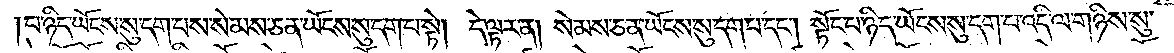པ་ཉིད་ཡོངས་སུ་དག་པས་སེམས་ཅན་ཡོངས་སུ་དག་པ་སྟེ། དེ་ལྟར་ན། སེམས་ཅན་ཡོངས་སུ་དག་པ་དང༌། སྟོང་པ་ཉིད་ཡོངས་སུ་དག་པ་འདི་ལ་གཉིས་སུ་
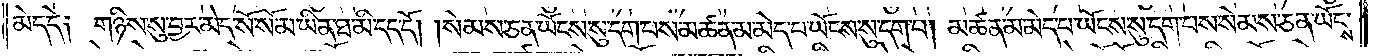མེད་དེ༑ གཉིས་སུ་བྱར་མེད་སོ་སོ་མ་ཡིན་ཐ་མི་དད་དོ། །སེམས་ཅན་ཡོངས་སུ་དག་པས་མཚན་མ་མེད་པ་ཡོངས་སུ་དག་པ། མཚན་མ་མེད་པ་ཡོངས་སུ་དག་པས་སེམས་ཅན་ཡོངས་
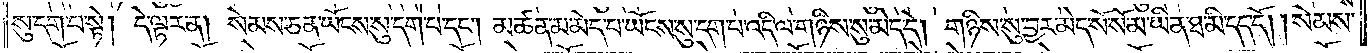སུ་དག་པ་སྟེ། དེ་ལྟར་ན། སེམས་ཅན་ཡོངས་སུ་དག་པ་དང༌། མཚན་མ་མེད་པ་ཡོངས་སུ་དག་པ་འདི་ལ་གཉིས་སུ་མེད་དེ། གཉིས་སུ་བྱར་མེད་སོ་སོ་མ་ཡིན་ཐ་མི་དད་དོ། །སེམས་
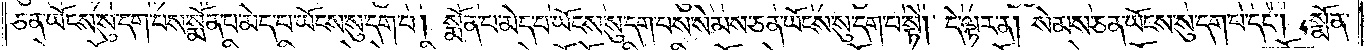ཅན་ཡོངས་སུ་དག་པས་སྨོན་པ་མེད་པ་ཡོངས་སུ་དག་པ། སྨོན་པ་མེད་པ་ཡོངས་སུ་དག་པས་སེམས་ཅན་ཡོངས་སུ་དག་པ་སྟེ། དེ་ལྟར་ན། སེམས་ཅན་ཡོངས་སུ་དག་པ་དང༌། སྨོན་
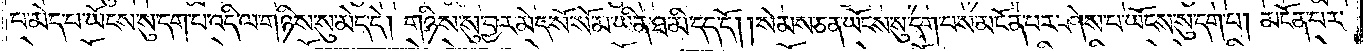པ་མེད་པ་ཡོངས་སུ་དག་པ་འདི་ལ་གཉིས་སུ་མེད་དེ། གཉིས་སུ་བྱར་མེད་སོ་སོ་མ་ཡིན་ཐ་མི་དད་དོ། །སེམས་ཅན་ཡོངས་སུ་དག་པས་མངོན་པར་ཤེས་པ་ཡོངས་སུ་དག་པ། མངོན་པར་
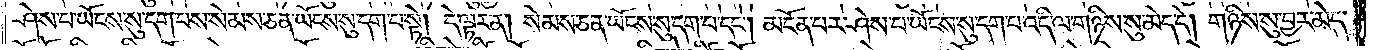ཤེས་པ་ཡོངས་སུ་དག་པས་སེམས་ཅན་ཡོངས་སུ་དག་པ་སྟེ། དེ་ལྟར་ན། སེམས་ཅན་ཡོངས་སུ་དག་པ་དང༌། མངོན་པར་ཤེས་པ་ཡོངས་སུ་དག་པ་འདི་ལ་གཉིས་སུ་མེད་དེ། གཉིས་སུ་བྱར་མེད་
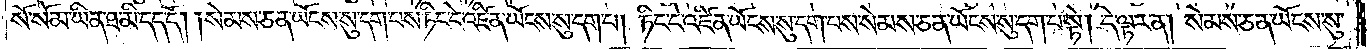སོ་སོ་མ་ཡིན་ཐ་མི་དད་དོ། །སེམས་ཅན་ཡོངས་སུ་དག་པས་ཏིང་ངེ་འཛིན་ཡོངས་སུ་དག་པ། ཏིང་ངེ་འཛིན་ཡོངས་སུ་དག་པས་སེམས་ཅན་ཡོངས་སུ་དག་པ་སྟེ། དེ་ལྟར་ན། སེམས་ཅན་ཡོངས་སུ་
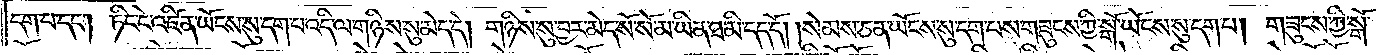དག་པ་དང༌། ཏིང་ངེ་འཛིན་ཡོངས་སུ་དག་པ་འདི་ལ་གཉིས་སུ་མེད་དེ། གཉིས་སུ་བྱར་མེད་སོ་སོ་མ་ཡིན་ཐ་མི་དད་དོ། །སེམས་ཅན་ཡོངས་སུ་དག་པས་གཟུངས་ཀྱི་སྒོ་ཡོངས་སུ་དག་པ། གཟུངས་ཀྱི་སྒོ་
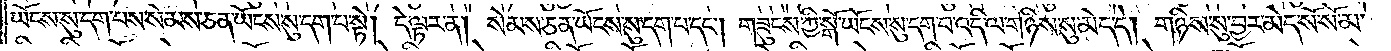ཡོངས་སུ་དག་པས་སེམས་ཅན་ཡོངས་སུ་དག་པ་སྟེ། དེ་ལྟར་ན། སེམས་ཅན་ཡོངས་སུ་དག་པ་དང༌། གཟུངས་ཀྱི་སྒོ་ཡོངས་སུ་དག་པ་འདི་ལ་གཉིས་སུ་མེད་དེ། གཉིས་སུ་བྱར་མེད་སོ་སོ་མ་
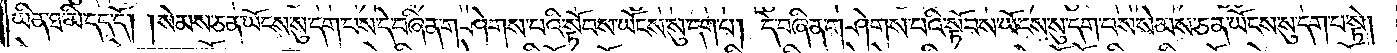ཡིན་ཐ་མི་དད་དོ། །སེམས་ཅན་ཡོངས་སུ་དག་པས་དེ་བཞིན་གཤེགས་པའི་སྟོབས་ཡོངས་སུ་དག་པ། དེ་བཞིན་གཤེགས་པའི་སྟོབས་ཡོངས་སུ་དག་པས་སེམས་ཅན་ཡོངས་སུ་དག་པ་སྟེ།
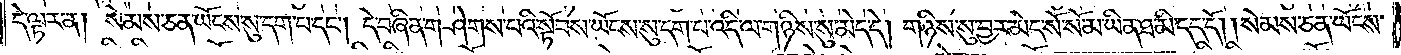དེ་ལྟར་ན། སེམས་ཅན་ཡོངས་སུ་དག་པ་དང༌། དེ་བཞིན་གཤེགས་པའི་སྟོབས་ཡོངས་སུ་དག་པ་འདི་ལ་གཉིས་སུ་མེད་དེ། གཉིས་སུ་བྱར་མེད་སོ་སོ་མ་ཡིན་ཐ་མི་དད་དོ། །སེམས་ཅན་ཡོངས་
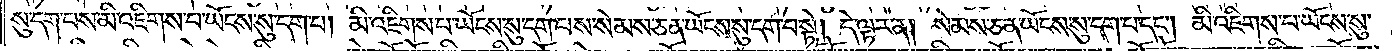སུ་དག་པས་མི་འཇིགས་པ་ཡོངས་སུ་དག་པ། མི་འཇིགས་པ་ཡོངས་སུ་དག་པས་སེམས་ཅན་ཡོངས་སུ་དག་པ་སྟེ། དེ་ལྟར་ན། སེམས་ཅན་ཡོངས་སུ་དག་པ་དང༌། མི་འཇིགས་པ་ཡོངས་སུ་
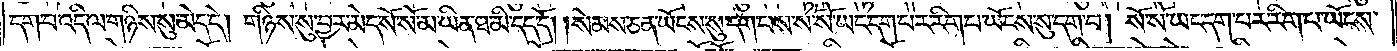དག་པ་འདི་ལ་གཉིས་སུ་མེད་དེ། གཉིས་སུ་བྱར་མེད་སོ་སོ་མ་ཡིན་ཐ་མི་དད་དོ། །སེམས་ཅན་ཡོངས་སུ་དག་པས་སོ་སོ་ཡང་དག་པར་རིག་པ་ཡོངས་སུ་དག་པ། སོ་སོ་ཡང་དག་པར་རིག་པ་ཡོངས་
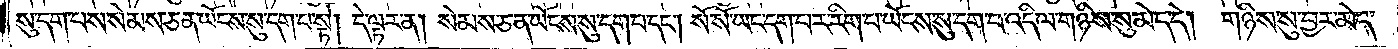སུ་དག་པས་སེམས་ཅན་ཡོངས་སུ་དག་པ་སྟེ། དེ་ལྟར་ན། སེམས་ཅན་ཡོངས་སུ་དག་པ་དང༌། སོ་སོ་ཡང་དག་པར་རིག་པ་ཡོངས་སུ་དག་པ་འདི་ལ་གཉིས་སུ་མེད་དེ། གཉིས་སུ་བྱར་མེད་
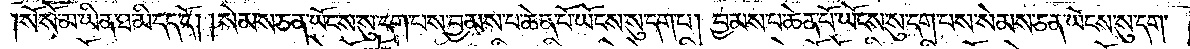སོ་སོ་མ་ཡིན་ཐ་མི་དད་དོ། །སེམས་ཅན་ཡོངས་སུ་དག་པས་བྱམས་པ་ཆེན་པོ་ཡོངས་སུ་དག་པ། བྱམས་པ་ཆེན་པོ་ཡོངས་སུ་དག་པས་སེམས་ཅན་ཡོངས་སུ་དག་
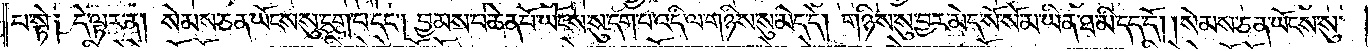པ་སྟེ༑ དེ་ལྟར་ན། སེམས་ཅན་ཡོངས་སུ་དག་པ་དང༌། བྱམས་པ་ཆེན་པོ་ཡོངས་སུ་དག་པ་འདི་ལ་གཉིས་སུ་མེད་དེ། གཉིས་སུ་བྱར་མེད་སོ་སོ་མ་ཡིན་ཐ་མི་དད་དོ། །སེམས་ཅན་ཡོངས་སུ་
